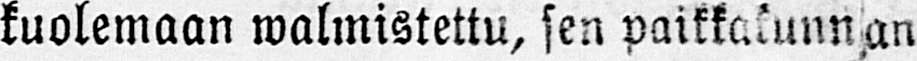kuolemaan walmistettu, sen paikkakunnan
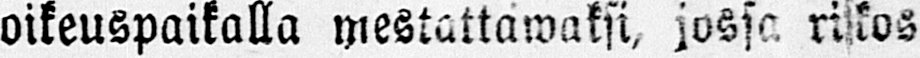oikeuspaikalla mestattawaksi, jossa rikos
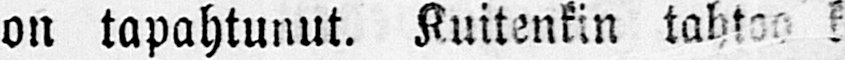on tapahtunut. Kuitenkin tahtoo keis.
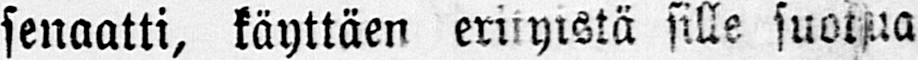senaatti, käyttäen eritytstä sille suotua
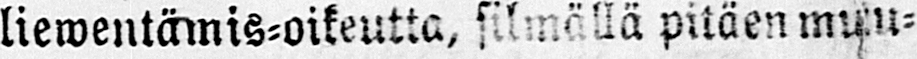liewentämis-oikeutta, silmällä pitäen muu-
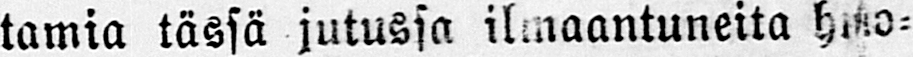tamia tässä jutussa ilmaantuneita huo-
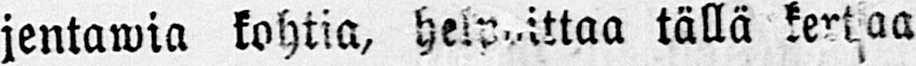jentawia kohtia, helpoittaa tällä kertaa
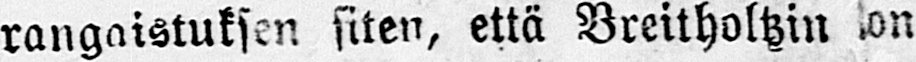rangaistuksen siten, että Breitholtzin on
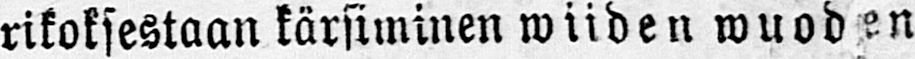rikoksestaan kärsiminen wiiden wuoden
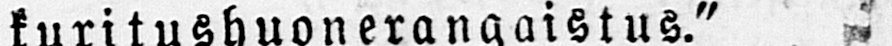kuritushuonerangaistus."
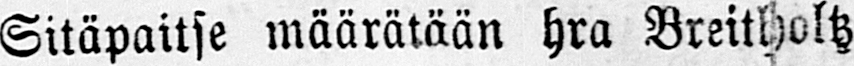Sitäpaitse määrätään hra Breitholtz
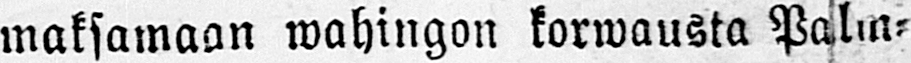maksamaan wahingon korwausta Palm-
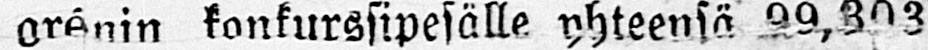grénin konkurssipesälle yhteensä 99,303
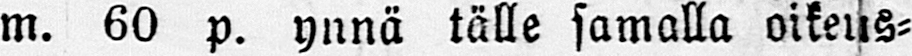m. 60 p. ynnä tälle samalla oikeus-
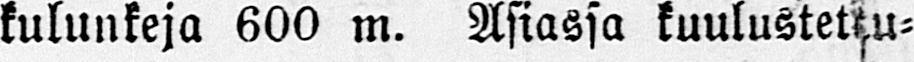kulunkeja 600 m. Asiassa kuulustetu-
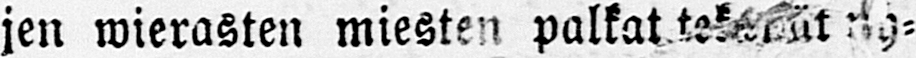jen wierasten miesten palkat tekewät yh-
